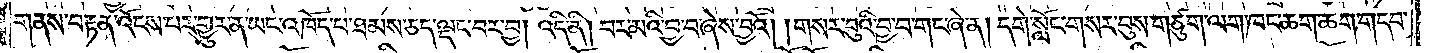གནས་བརྟན་འོངས་པར་གྱུར་ན་ཡང་འཁོད་པ་ཐམས་ཅད་ལྡང་བར་བྱ། འདི་ནི། བར་མའི་བྱ་བ་ཞེས་བྱའོ། །གསར་བུའི་བྱ་བ་གང་ཞེ་ན། དགེ་སློང་གསར་བུས་གཙུག་ལག་ཁང་ཆག་ཆག་གདབ་
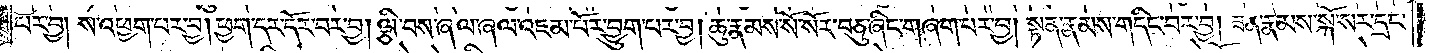པར་བྱ། ས་འཕྱག་པར་བྱ། ཕྱག་དར་དོར་བར་བྱ། ལྕི་བས་ཞལ་ཞལ་འཇམ་པོར་བྱུག་པར་བྱ། ཆུ་རྣམས་སོ་སོར་བཅུ་ཞིང་གཞག་པར་བྱ། སྟན་རྣམས་གདིང་བར་བྱ། ཟན་རྣམས་སྐོ་སར་དྲང་
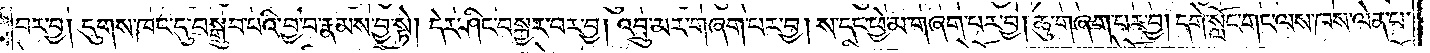བར་བྱ། དུགས་ཁང་དུ་བསྒྲུབ་པའི་བྱ་བ་རྣམས་བྱ་སྟེ། དེར་ཤིང་བསྐྱར་བར་བྱ། འབྲུ་མར་གཞག་པར་བྱ། ས་དང་ཕྱེ་མ་གཞག་པར་བྱ། ཆུ་གཞག་པར་བྱ། དགེ་སློང་གང་ལས་ཁས་ལེན་པ་
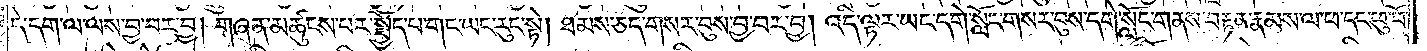དེ་དག་ལ་ལས་བྱ་བར་བྱ། གཞན་མཚུངས་པར་སྤྱོད་པ་གང་ཡང་རུང་སྟེ། ཐམས་ཅད་གསར་བུས་བྱ་བར་བྱ། འདི་ལྟར་ཡང་དགེ་སློང་གསར་བུས་དགེ་སློང་གནས་བརྟན་རྣམས་ལ་ཕ་དང་ཕུ་བོ་
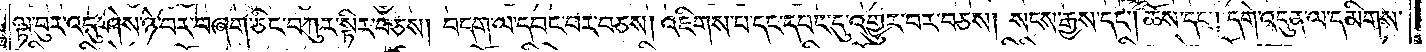ལྟ་བུར་འདུ་ཤེས་ཉེ་བར་བཞག་ཅིང་བཀུར་སྟིར་བཅས། བདག་ལ་དབང་བར་བཅས། འཇིགས་པ་དང་དབང་དུ་འགྱུར་པར་བཅས། སངས་རྒྱས་དང༌། ཆོས་དང༌། དགེ་འདུན་ལ་དམིགས་
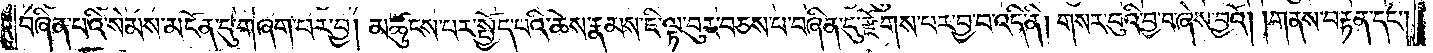བཞིན་པའི་སེམས་མངོན་དུ་གཞག་པར་བྱ། མཚུངས་པར་སྤྱོད་པའི་ཆོས་རྣམས་ཇི་ལྟ་བུར་བཅས་པ་བཞིན་དུ་རྫོགས་པར་བྱ་བ་འདི་ནི། གསར་བུའི་བྱ་བ་ཞེས་བྱའོ། །གནས་བརྟན་དང༌།
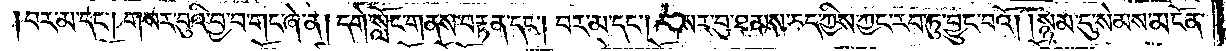བར་མ་དང༌། གསར་བུའི་བྱ་བ་གང་ཞེ་ན། དགེ་སློང་གནས་བརྟན་དང༌། བར་མ་དང༌། གསར་བུ་ཐམས་ཅད་ཀྱིས་ཀྱང་རབ་ཏུ་བྱུང་བའོ། །སྙམ་དུ་སེམས་མངོན་
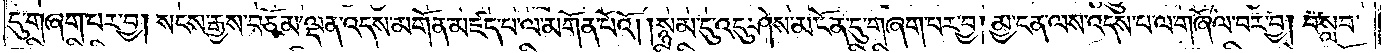དུ་གཞག་པར་བྱ། སངས་རྒྱས་བཅོམ་ལྡན་འདས་མགོན་མཛད་པ་ལ་མགོན་པོའོ། །སྙམ་དུ་འདུ་ཤེས་མངོན་དུ་གཞག་པར་བྱ། མྱ་ངན་ལས་འདས་པ་ལ་གཞོལ་བར་བྱ། བསླབ་
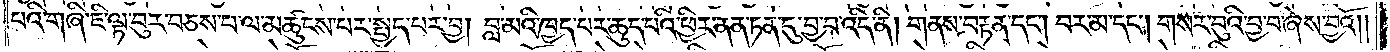པའི་གཞི་ཇི་ལྟ་བུར་བཅས་པ་ལ་མཚུངས་པར་སྤྱད་པར་བྱ། བླ་མའི་ཁྱད་པར་ཆུད་པའི་ཕྱིར་ནན་ཏན་དུ་བྱ་བ་འདི་ནི། གནས་བརྟན་དང༌། བར་མ་དང༌། གསར་བུའི་བྱ་བ་ཞེས་བྱའོ། །
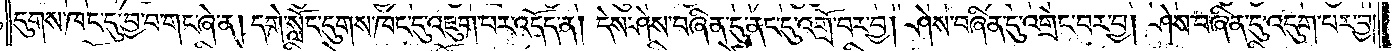དུགས་ཁང་དུ་བྱ་བ་གང་ཞེ་ན། དགེ་སློང་དུགས་ཁང་དུ་འཇུག་པར་འདོད་ན། དེས་ཤེས་བཞིན་དུ་ནང་དུ་འགྲོ་བར་བྱ། ཞེས་བཞིན་དུ་འགྲེང་བར་བྱ། ཤེས་བཞིན་དུ་འདུག་པར་བྱ།
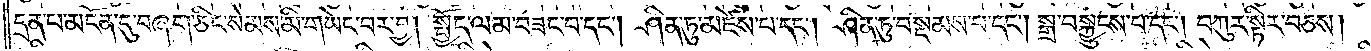དྲན་པ་མངོན་དུ་བཞག་ཅིང་སེམས་མི་གཡེང་བར་བྱ། སྤྱོད་ལམ་བཟང་པ་དང༌། ཤིན་ཏུ་མཛེས་པ་དང༌། ཤིན་ཏུ་བསྡམས་པ་དང༌། སྒྲ་བསྐྱུངས་པ་དང༌། བཀུར་སྟིར་བཅས།
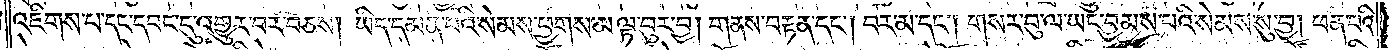འཇིགས་པ་དང་དབང་དུ་འགྱུར་བར་བཅས། ཡིད་དམན་པའི་སེམས་ཕྱགས་མ་ལྟ་བུར་བྱ། གནས་བརྟན་དང༌། བར་མ་དང༌། གསར་བུ་ལ་ཡང་བྱམས་པའི་སེམས་སུ་བྱ། ཕན་པའི་
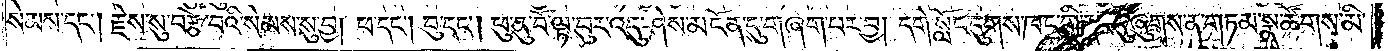སེམས་དང༌། རྗེས་སུ་བརྩེ་བའི་སེམས་སུ་བྱ། ཕ་དང༌། བུ་དང༌། ཕུ་ནུ་བོ་ལྟ་བུར་འདུ་ཤེས་མངོན་དུ་གཞག་པར་བྱ། དགེ་སློང་དུགས་ཁང་གི་ནང་དུ་ཞུགས་ན་གཏམ་སྣ་ཚོགས་མི་
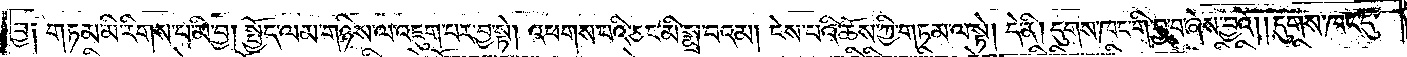བྱ༑ གཏམ་མི་རིགས་པ་མི་བྱ། སྤྱོད་ལམ་གཉིས་ལ་འཇུག་པར་བྱ་སྟེ། འཕགས་པའི་ཅང་མི་སྨྲ་བའམ། ངེས་པའི་ཆོས་ཀྱི་གཏམ་ལ་སྟེ། དེ་ནི། དུགས་ཁང་གི་བྱ་བ་ཞེས་བྱའོ། །དུགས་ཁང་དུ་
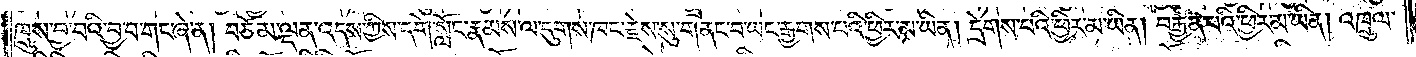ཁྲུས་བྱ་བའི་བྱ་བ་གང་ཞེ་ན། བཅོམ་ལྡན་འདས་ཀྱིས་དགེ་སློང་རྣམས་ལ་དུགས་ཁང་རྗེས་སུ་གནང་བ་ཡང་རྒྱགས་པའི་ཕྱིར་མ་ཡིན། དྲེགས་པའི་ཕྱིར་མ་ཡིན། བརྒྱན་པའི་ཕྱིར་མ་ཡིན། འཁྲུལ་
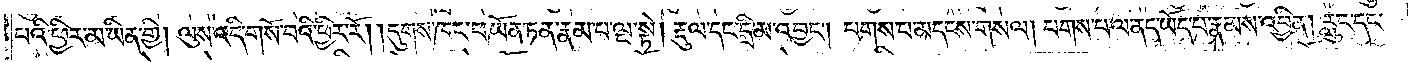པའི་ཕྱིར་མ་ཡིན་གྱི། ལུས་འདི་གསོ་བའི་ཕྱིར་རོ། །དུགས་ཁང་པ་ཡོན་ཏན་རྣམ་པ་ལྔ་སྟེ། རྡུལ་དང་དྲི་མ་འབྱང༌། པགས་པ་མདངས་གསལ། པགས་པ་ལ་ནད་ཡོད་པ་རྣམས་འབྱིན། རླུང་དང་
